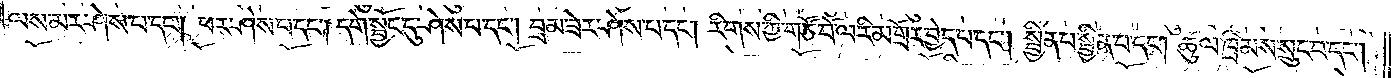ལས་མར་ཤེས་པ་དང༌། ཕར་ཤེས་པ་དང༌། དགེ་སྤྱོང་དུ་ཤེས་པ་དང༌། བྲམ་ཟེར་ཤེས་པ་དང༌། རིགས་ཀྱི་གཙོ་བོ་ལ་རིམ་གྲོ་བྱེད་པ་དང༌། སྦྱིན་པ་སྦྱིན་པ་དང༌། ཚུལ་ཁྲིམས་སྲུང་བ་དང༌།
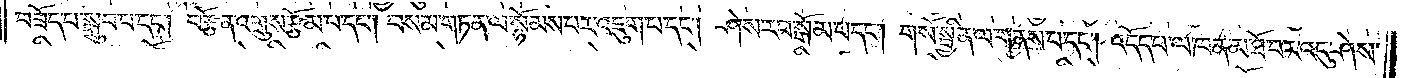བཟོད་པ་སྒྲུབ་པ་དང༌། བརྩོན་འགྲུས་རྩོམ་པ་དང༌། བསམ་གཏན་ལ་སྙོམས་པར་འཇུག་པ་དང༌། ཤེས་རབ་སྒོམ་པ་དང༌། གསོ་སྦྱིན་ལ་གནས་པ་དང༌། འདོད་པ་ལ་ཁ་ན་མ་ཐོ་བར་འདུ་ཤེས་
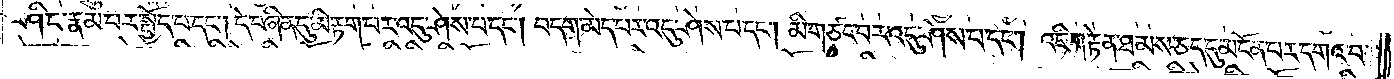ཤིང་རྣམ་པར་སྤྱོད་པ་དང༌། དེ་བཞིན་དུ་མི་རྟག་པར་འདུ་ཤེས་པ་དང༌། བདག་མེད་པར་འདུ་ཤེས་པ་དང༌། མི་གཙང་བར་འདུ་ཤེས་པ་དང༌། འཇིག་རྟེན་ཐམས་ཅད་དུ་མངོན་པར་དགའ་བ་
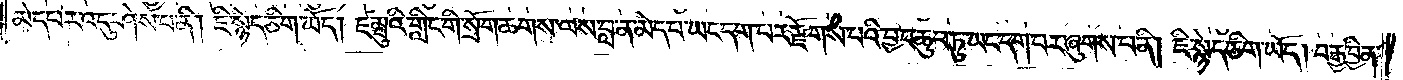མེད་པར་འདུ་ཤེས་པ་ནི། ཇི་སྙེད་ཅིག་ཡོད། ཛམྦུའི་གླིང་གི་སྲོག་ཆགས་ལས་བླ་ན་མེད་པ་ཡང་དག་པར་རྫོགས་པའི་བྱང་ཆུབ་ཏུ་ཡང་དག་པར་ཞུགས་པ་ནི། ཇི་སྙེད་ཅིག་ཡོད། བརྒྱ་བྱིན་
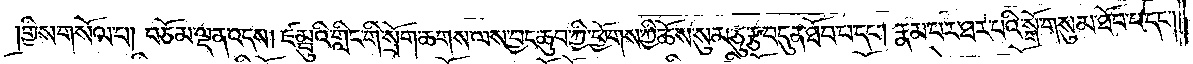གྱིས་གསོལ་པ། བཅོམ་ལྡན་འདས། ཛམྦུའི་གླིང་གི་སྲོག་ཆགས་ལས་བྱང་ཆུབ་ཀྱི་ཕྱོགས་ཀྱི་ཆོས་སུམ་ཅུ་རྩ་བདུན་ཐོབ་པ་དང༌། རྣམ་པར་ཐར་པའི་སྒོ་གསུམ་ཐོབ་པ་དང༌།
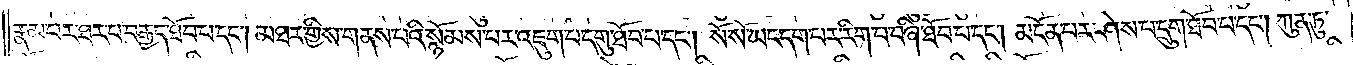རྣམ་པར་ཐར་པ་བརྒྱད་ཐོབ་པ་དང༌། མཐར་གྱིས་གནས་པའི་སྙོམས་པར་འཇུག་པ་དགུ་ཐོབ་པ་དང༌། སོ་སོ་ཡང་དག་པར་རིག་པ་བཞི་ཐོབ་པ་དང༌། མངོན་པར་ཤེས་པ་དྲུག་ཐོབ་པ་དང༌། ཀུན་ཏུ་
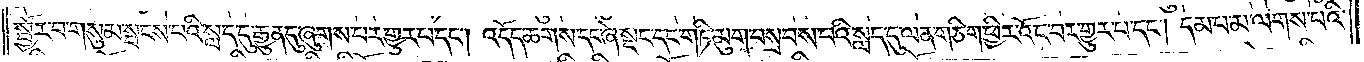སྦྱོར་བ་གསུམ་སྤངས་པའི་སླད་དུ་རྒྱུན་དུ་ཞུགས་པར་གྱུར་པ་དང༌། འདོད་ཆགས་དང་ཞེ་སྡང་དང་གཏི་མུག་བསྲབས་པའི་སླད་དུ་ལན་ཅིག་ཕྱིར་འོང་བར་གྱུར་བ་དང༌། དམ་པ་མ་ལགས་པའི་
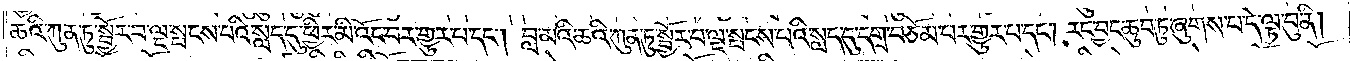ཆའི་ཀུན་ཏུ་སྦྱོར་བ་ལྔ་སྤངས་པའི་སླད་དུ་ཕྱིར་མི་འོང་བར་གྱུར་པ་དང༌། བླ་མའི་ཆེའི་ཀུན་ཏུ་སྦྱོར་བ་ལྔ་སྤངས་པའི་སླད་དུ་དགྲ་བཅོམ་པར་གྱུར་པ་དང༌། རང་བྱང་ཆུབ་ཏུ་ཞུགས་པ་དེ་ལྟ་བུ་ནི།
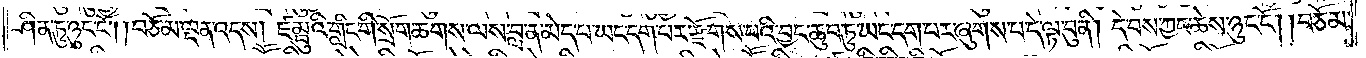ཤིན་ཏུ་ཉུང་ངོ༌། །བཅོམ་ལྡན་འདས། ཛམྦུའི་གླིང་གི་སྲོག་ཆགས་ལས་བླ་ན་མེད་པ་ཡང་དག་པར་རྫོགས་པའི་བྱང་ཆུབ་ཏུ་ཡང་དག་པར་ཞུགས་པ་དེ་ལྟ་བུ་ནི། དེ་བས་ཀྱང་ཆེས་ཉུང་ངོ༌། །བཅོམ་
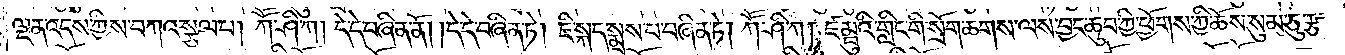ལྡན་འདས་ཀྱིས་བཀའ་སྩལ་པ། ཀཽ་ཤི་ཀ། དེ་དེ་བཞིན་ནོ། །དེ་དེ་བཞིན་ཏེ། ཇི་སྐད་སྨྲས་པ་བཞིན་ཏེ། ཀཽ་ཤི་ཀ། ཛམྦུའི་གླིང་གི་སྲོག་ཆགས་ལས་བྱང་ཆུབ་ཀྱི་ཕྱོགས་ཀྱི་ཆོས་སུམ་ཅུ་རྩ་
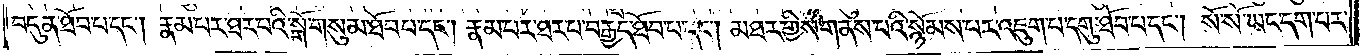བདུན་ཐོབ་པ་དང༌། རྣམ་པར་ཐར་པའི་སྒོ་གསུམ་ཐོབ་པ་དང༌། རྣམ་པར་ཐར་པ་བརྒྱད་ཐོབ་པ་དང༌། མཐར་གྱིས་གནས་པའི་སྙོམས་པར་འཇུག་པ་དགུ་ཐོབ་པ་དང༌། སོ་སོ་ཡང་དག་པར་
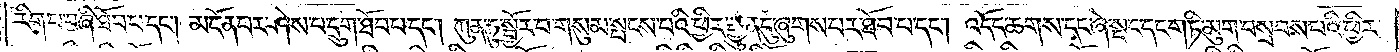རིག་པ་བཞི་ཐོབ་པ་དང༌། མངོན་པར་ཤེས་པ་དྲུག་ཐོབ་པ་དང༌། ཀུན་ཏུ་སྦྱོར་བ་གསུམ་སྤངས་པའི་ཕྱིར་རྒྱུན་དུ་ཞུགས་པར་ཐོབ་པ་དང༌། འདོད་ཆགས་དང་ཞེ་སྡང་དང་གཏི་མུག་བསྲབས་པའི་ཕྱིར་
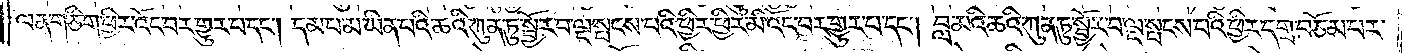ལན་གཅིག་ཕྱིར་འོང་བར་གྱུར་པ་དང༌། དམ་པ་མ་ཡིན་པའི་ཆའི་ཀུན་ཏུ་སྦྱོར་བ་ལྔ་སྤངས་པའི་ཕྱིར་ཕྱིར་མི་འོང་བར་གྱུར་པ་དང༌། བླ་མའི་ཆའི་ཀུན་ཏུ་སྦྱོར་བ་ལྔ་སྤངས་པའི་ཕྱིར་དགྲ་བཅོམ་པར་
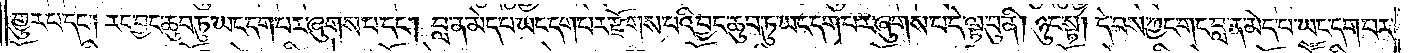གྱུར་པ་དང༌། རང་བྱང་ཆུབ་ཏུ་ཡང་དག་པར་ཞུགས་པ་དང༌། བླ་ན་མེད་པ་ཡང་དག་པར་རྫོགས་པའི་བྱང་ཆུབ་ཏུ་ཡང་དག་པར་ཞུགས་པ་དེ་ལྟ་བུ་ནི། ཉུང་སྟེ། དེ་བས་ཀྱང་གང་བླ་ན་མེད་པ་ཡང་དག་པར་
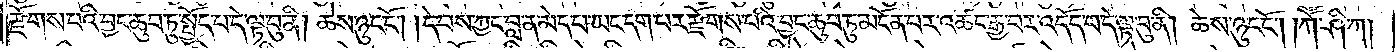རྫོགས་པའི་བྱང་ཆུབ་ཏུ་སྤྱོད་པ་དེ་ལྟ་བུ་ནི། ཆེས་ཉུང་ངོ༌། །དེ་བས་ཀྱང་བླ་ན་མེད་པ་ཡང་དག་པར་རྫོགས་པའི་བྱང་ཆུབ་ཏུ་མངོན་པར་འཚང་རྒྱ་བར་འདོད་པ་དེ་ལྟ་བུ་ནི། ཆེས་ཉུང་ངོ༌། །ཀཽ་ཤི་ཀ།
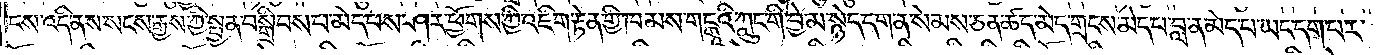ངས་འདི་ནས་སངས་རྒྱས་ཀྱི་སྤྱན་བསྒྲིབས་པ་མེད་པས་ཤར་ཕྱོགས་ཀྱི་འཇིག་རྟེན་གྱི་ཁམས་གངྒཱའི་ཀླུང་གི་བྱེ་མ་སྙེད་དག་ན་སེམས་ཅན་ཚད་མེད་གྲངས་མེད་པ་བླ་ན་མེད་པ་ཡང་དག་པར་
